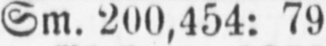Sm. 200,454: 79.
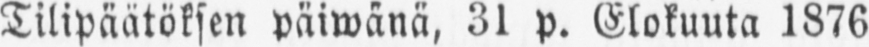Tilipäätöksen päiwänä, 31 p. Elokuuta 1876.
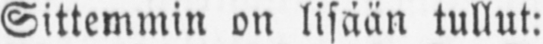Sittemmin on lisään tullut:
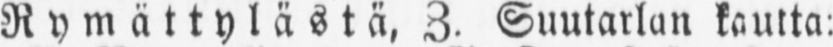Rymättylästä, Z. Suutarlan kautta:
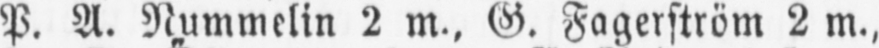P. A. Nummelin 2 m., G. Fagerström 2 m.,
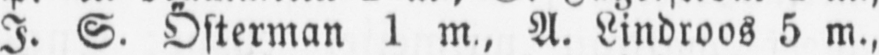I. S. Österman 1 m., A. Lindroos 5 m.,
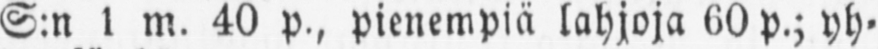Sm 1 m. 40 p., pienempiä lahjoja 60 p.; yh-
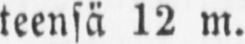teensä 12 m.
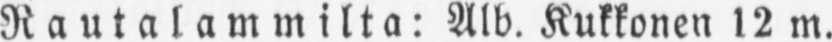Rautalammilta: Alb. Kukkonen 12 m.
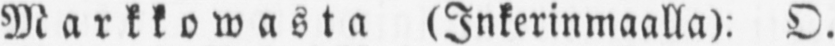Markkowasta (Inkerinmaalla): O.
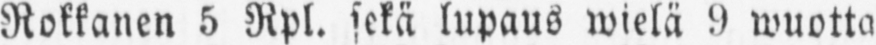Rokkarien 5 Rpl. sekä lupaus wielä 9 wuotta
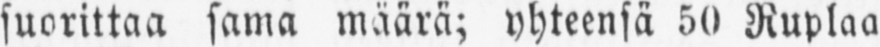suorittaa sama määrä; yhteensä 50 Ruplaa
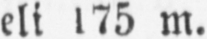eli l75 m.
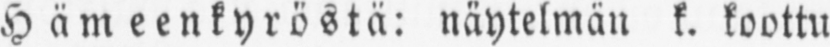Hämeenkyröstä: näytelmän k. koottu
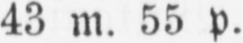43 m. 55 p.
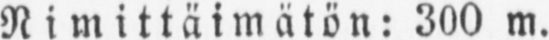Nimittäimätön: 300 m.
